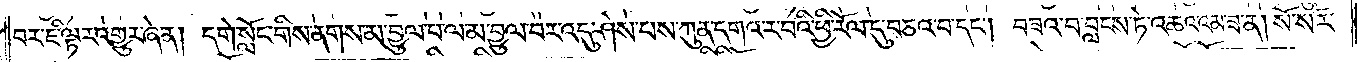བར་ཇི་ལྟར་འགྱུར་ཞེ་ན། དགེ་སློང་གིས་ནགས་མ་བྱུལ་བ་ལ་མ་བྱུལ་བར་འདུ་ཤེས་པས་ཀུན་དགའ་ར་བའི་ཕྱི་རོལ་དུ་བཅའ་བ་དང༌། བཟའ་བ་བླངས་ཏེ་འཆའ་འམ་ཟ་ན། སོ་སོར་
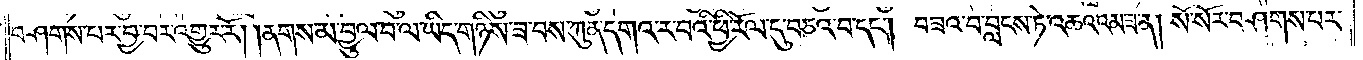བཤགས་པར་བྱ་བར་འགྱུར་རོ། །ནགས་མ་བྱུལ་བ་ལ་ཡིད་གཉིས་ཟ་བས་ཀུན་དགའ་ར་བའི་ཕྱི་རོལ་དུ་བཅའ་བ་དང༌། བཟའ་བ་བླངས་ཏེ་འཆའ་འམ་ཟ་ན། སོ་སོར་བཤགས་པར་
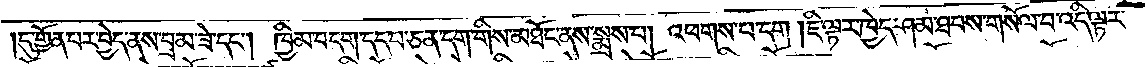དུ་གྱོན་པར་བྱེད་ནས་བྲམ་ཟེ་དང༌། ཁྱིམ་བདག་དད་པ་ཅན་དག་གིས་མཐོང་ནས་སྨྲས་པ། འཕགས་པ་དག །ཇི་ལྟར་ཁྱེད་ཤམ་ཐབས་གསོལ་བ་འདི་ལྟར་
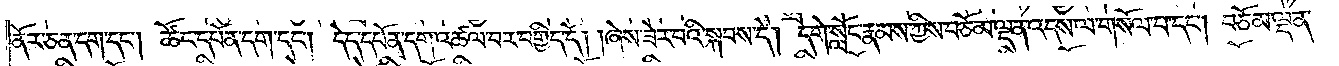ནོར་ཅན་དག་དང༌། ཚོང་དཔོན་དག་དང༌། དེད་དཔོན་དག་འཚལ་བར་བགྱིད་དོ། །ཞེས་ཟེར་བའི་སྐབས་དེ། དགེ་སློང་རྣམས་ཀྱིས་བཅོམ་ལྡན་འདས་ལ་གསོལ་པ་དང༌། བཅོམ་ལྡན་
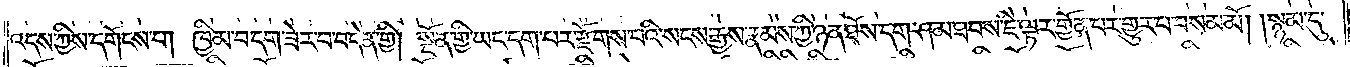འདས་ཀྱིས་དགོངས་པ། ཁྱིམ་བདག་ཟེར་བ་བདེན་གྱི། སྔོན་གྱི་ཡང་དག་པར་རྫོགས་པའི་སངས་རྒྱས་རྣམས་ཀྱི་ཉན་ཐོས་དག་ཤམ་ཐབས་ཇི་ལྟར་གྱོན་པར་གྱུར་པ་བསམ་མོ། །སྙམ་དུ་
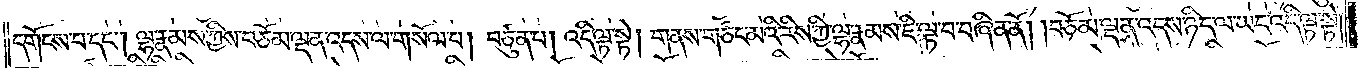དགོངས་པ་དང༌། ལྷ་རྣམས་ཀྱིས་བཅོམ་ལྡན་འདས་ལ་གསོལ་པ། བཙུན་པ། འདི་ལྟ་སྟེ། གནས་གཙང་མའི་རིས་ཀྱི་ལྷ་རྣམས་ཇི་ལྟ་བ་བཞིན་ནོ། །བཅོམ་ལྡན་འདས་ཉིད་ལ་ཡང་འདི་ལྟ་སྟེ།
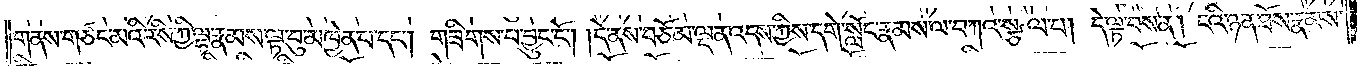གནས་གཙང་མའི་རིས་ཀྱི་ལྷ་རྣམས་ལྟ་བུ་མཁྱེན་པ་དང༌། གཟིགས་པ་བྱུང་ངོ༌། །དེ་ནས་བཅོམ་ལྡན་འདས་ཀྱིས་དགེ་སློང་རྣམས་ལ་བཀའ་སྩལ་པ། དེ་ལྟ་བས་ན། ངའི་ཉན་ཐོས་རྣམས་
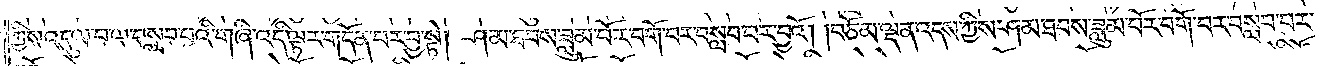ཀྱིས་འདུལ་བ་ལ་བསླབ་པའི་གཞི་འདི་ལྟར་གདོན་པར་བྱ་སྟེ། ཤམ་ཐབས་ཟླུམ་པོར་བགོ་བར་བསླབ་པར་བྱའོ། །བཅོམ་ལྡན་འདས་ཀྱིས་ཤམ་ཐབས་ཟླུམ་པོར་བགོ་བར་བསླབ་པར་
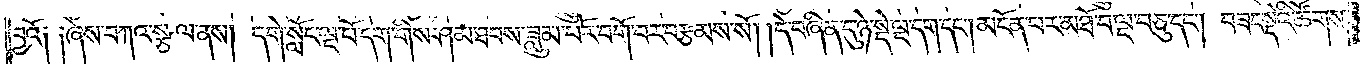བྱའོ༑ ༑ཞེས་བཀའ་སྩལ་ནས། དགེ་སློང་ལྔ་པོ་དག་གིས་ཤམ་ཐབས་ཟླུམ་པོར་བགོ་བར་བརྩམས་སོ། །དེ་བཞིན་དུ་ཉེ་སྡེ་ལྔ་དག་དང༌། མངོན་པར་མཐོ་བ་ལྔ་བཅུ་དང༌། བཟང་སྡེའི་ཚོགས་
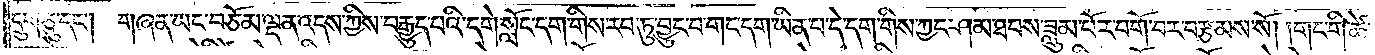དྲུག་ཅུ་དང༌། གཞན་ཡང་བཅོམ་ལྡན་འདས་ཀྱིས་བརྒྱུད་པའི་དགེ་སློང་དག་གིས་རབ་ཏུ་བྱུང་བ་གང་དག་ཡིན་པ་དེ་དག་གིས་ཀྱང་ཤམ་ཐབས་ཟླུམ་པོར་བགོ་བར་བརྩམས་སོ། །གང་གི་ཚེ་
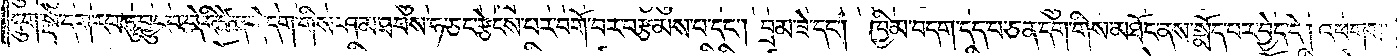དྲུག་སྡེ་དག་རབ་ཏུ་བྱུང་བ་དེའི་ཚེ་ན་དེ་དག་གིས་ཤམ་ཐབས་ཧ་ཅང་རྩེངས་པར་བགོ་བར་བརྩམས་པ་དང༌། བྲམ་ཟེ་དང༌། ཁྱིམ་བདག་དད་པ་ཅན་དག་གིས་མཐོང་ནས་སྨོད་པར་བྱེད་དེ། འཕགས་
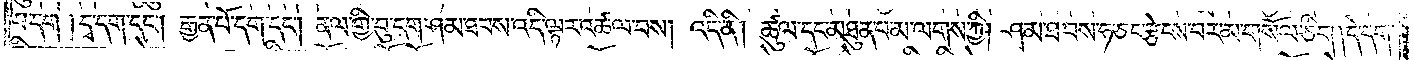པ་དག །དྭ་དག་དང༌། རྒྱན་པོ་དག་དང༌། ནལ་གྱི་བུ་དག་ཤམ་ཐབས་འདི་ལྟར་འཚལ་བས། འདི་ནི། ཚུལ་དང་མཐུན་པ་མ་ལགས་ཀྱི། ཤམ་ཐབས་ཧ་ཅང་རྩེངས་པར་མ་གསོལ་ཅིག །དེ་དག་
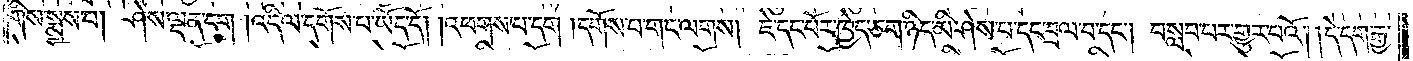གིས་སྨྲས་པ། ཤེས་ལྡན་དག །འདི་ལ་དགོས་པ་ཡོད་དོ། །འཕགས་པ་དག །དགོས་པ་གང་ལགས། ཇེ་དང་པོར་ཁྱེད་ཅག་ཉིད་མི་ཤེས་པ་དང་བྲལ་བ་དང༌། བསླབ་པར་གྱུར་པའོ། །དེ་དག་རྒྱ་
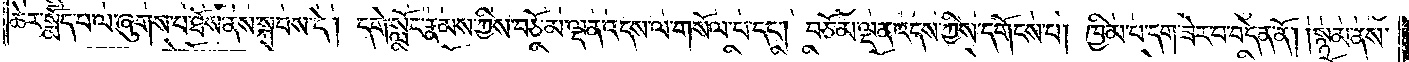ཆེར་སྨོད་པ་ལ་ཞུགས་པ་ཐོས་ནས་སྐབས་དེ། དགེ་སློང་རྣམས་ཀྱིས་བཅོམ་ལྡན་འདས་ལ་གསོལ་བ་དང༌། བཅོམ་ལྡན་འདས་ཀྱིས་དགོངས་པ། ཁྱིམ་པ་དག་ཟེར་བ་བདེན་ནོ། །སྙམ་ནས་
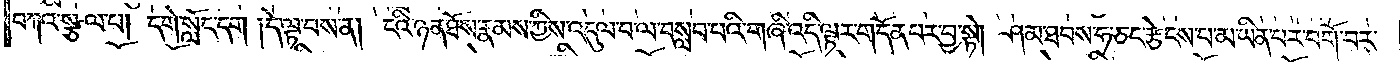བཀའ་སྩལ་པ། དགེ་སློང་དག །དེ་ལྟ་བས་ན། ངའི་ཉན་ཐོས་རྣམས་ཀྱིས་འདུལ་བ་ལ་བསླབ་པའི་གཞི་འདི་ལྟར་གདོན་པར་བྱ་སྟེ། ཤམ་ཐབས་ཧ་ཅང་རྩེངས་པ་མ་ཡིན་པར་བགོ་བར་
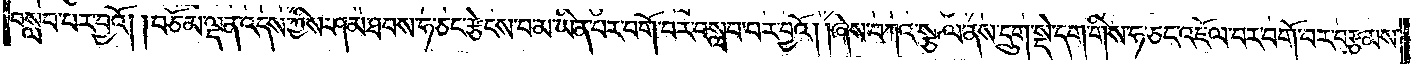བསླབ་པར་བྱའོ། །བཅོམ་ལྡན་འདས་ཀྱིས་ཤམ་ཐབས་ཧ་ཅང་རྩེངས་པ་མ་ཡིན་པར་བགོ་བར་བསླབ་པར་བྱའོ། །ཞེས་བཀའ་སྩལ་ནས་དྲུག་སྡེ་དག་གིས་ཧ་ཅང་འཇོལ་བར་བགོ་བར་བརྩམས་
